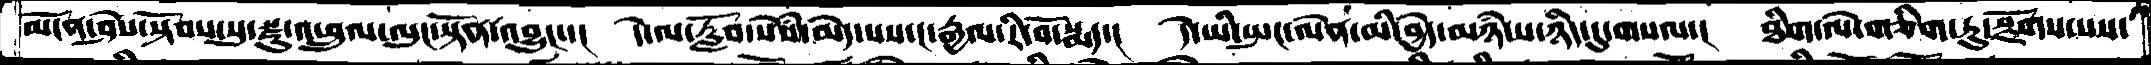མངོན་ཤེས་སྟོབས་སུ་སྫུ་འཕྲུལ་ལུང་སྟོན་འབྱུང་་།  དེ་ལ་རློབ་སེཾས་མེད་པས་ང་རྒྱལ་རི་བོ་སྨད་།  དེ་ཡི་སྤང་ལེན་མི་བྱེད་མཉཾ་པ་ཉིད་དུ་གསལ་།  ཐིག་ལེ་གཅིག་ཏུ་སྫོགས་པས་
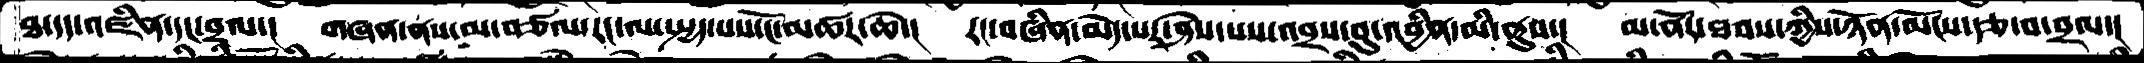ཐ་དད་འཛིན་དང་བྲལ་།  གཞན་ནས་མ་བཙལ་རང་ལ་སྤྱད་པས་ངོ་མཚར་ཆེ་།  རང་བཞིན་མེད་པར་ཤེས་པས་འབྲས་བུ་འབྱིན་མི་ནུས་།  མ་ནོར་ཐབས་ཀྱིས་ཉོན་མོངས་རྩ་བ་བྲལ་།
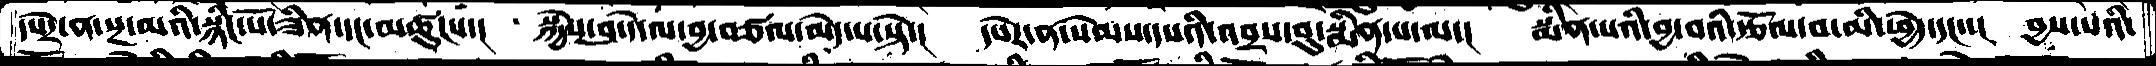དཔེར་ན་སྔ་མའི་སྙིང་པོ་ཟིན་དང་མཚུངས་།  སྐྱེས་བུ་དེ་ལ་བྱ་བཙལ་མེད་པ་སྟེ།  དཔེར་ན་སེམས་དཔའི་འབྲས་བུ་སྨིན་པ་ལ་།  སྨིན་པའི་བྱ་བའི་རྩོལ་བ་མི་ཕྱེད་དང་་།  བྱས་པའི་
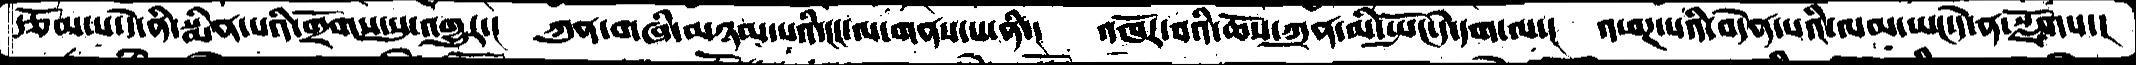རྩོམ་པ་དེ་ནི་སྨིན་པའི་གྲོགས་སུ་འགྱུར་།  ཀུན་གཞི་མཉམ་པའི་ངང་ལ་གནས་པ་ནི་།  འཁོར་བའི་ཆོས་ཀུན་མི་སྤོང་དེ་དག་ལ་།  འཕཌ་པའི་བདེན་པའི་ལམ་ཡང་དེ་ན་སྫོགས་།
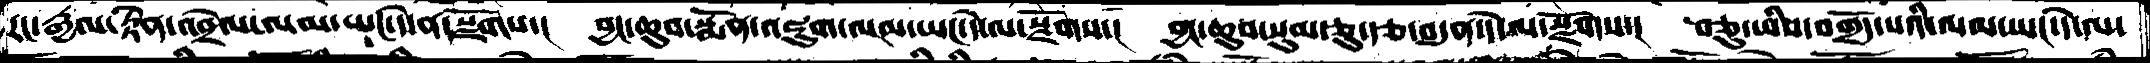རང་རྒྱལ་རྟེན་འབྲེལ་ལམ་ཡང་དེ་ན་སྫོགས་།  བྱང་ཆུབ་སྨོན་འཇུག་ལམ་ཡང་དེ་ལ་སྫོགས་།  བྱང་ཆུབ་སུམ་ཅུ་རྩ་བདུན་དེ་ལ་སྫོགས་།  བཅུ་ཡིས་བགྲོད་པའི་ལམ་ཡང་དེ་ལ་
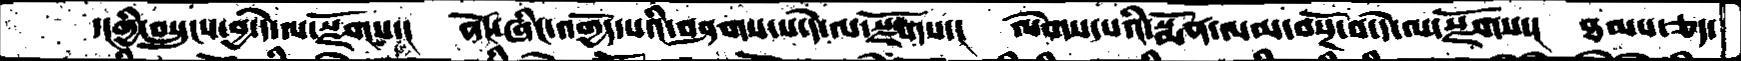་།གྱི་བསྲུངས་བྱ་དེ་ལ་སྫོགས་།  ནོང་ཞིང་འགྱོད་པའི་བཤགས་པ་དེ་ལ་སྫོགས་།  ལེགས་པའི་སྨོན་ལམ་བསྔོ་བ་དེ་ལ་སྫོགས་།  ཐམས་ཅད་
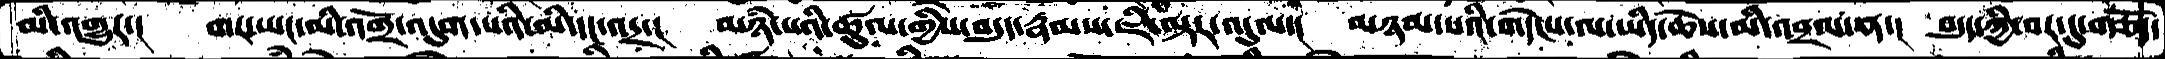མི་འགྱུར་།  གར་ཡང་མི་འགྲོ་འདུག་པའི་མི་དང་འདྲ་།  མཉཾ་པའི་ཚུལ་གྱིས་བདུད་རྣམས་ཇི་ལྟར་འདུལ་།  མཉམ་པའི་གདེངས་ལ་ཡིད་ཆེས་མི་འབྲལ་ན་།  བདུད་ཀྱི་བར་དུ་གཅོད་
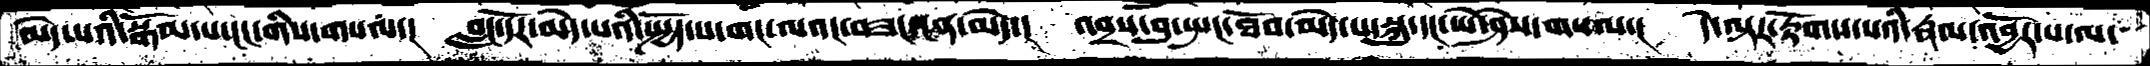མེད་པའི་སྒོམ་པ་ངང་གིས་གསལ་།  བླང་དོར་མེད་པའི་སྤྱོད་པ་གང་ལའང་བཟང་ངན་མེད་།  འབྲས་བུ་སྤང་ཐོབ་མེད་པ་སྐུ་དང་ཡེ་ཤེས་གསལ་།  དེ་ལྟར་རྟོགས་པའི་རྣལ་འབྱོར་པ་ལ་
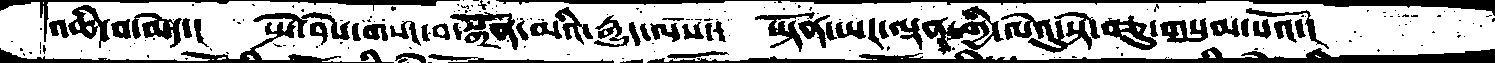འཆི་བ་མེད་།  ཡེ་ཤེས་གསང་བ་སྒྲོན་མའི་རྒྱུད་ལས་།  ཡྟོན་ཡར་ལྡན་གྱི་ལེའུ་སྟེ་གཅུ་གསུམ་པའོ་།
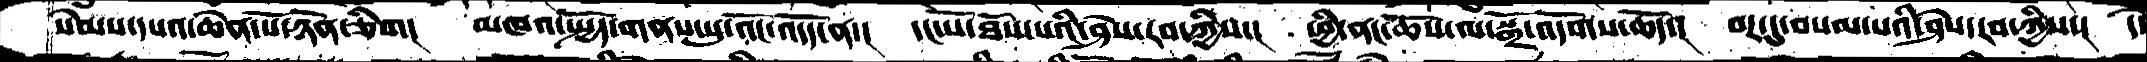སེམས་དཔའ་ཆེན་པོ་ཉོན་ཅིག།  མཁའ་སྤྱོད་གནས་སུ་འོང་འདོད་ན་།  དང་པོ་ཐོས་པའི་ཤེས་རབ་ཀྱིས་།  ཕྱི་ནང་ཆོས་ལ་སྒྲོ་འདོགས་ཆོད་།  བར་དུ་བསམ་པའི་ཤེས་རབ་ཀྱིས་།  དེ་
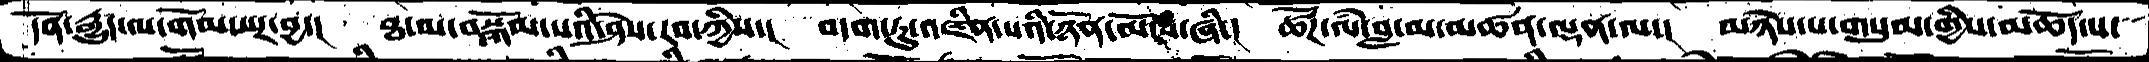དོན་རྒྱུད་ལ་གོམ་པར་བྱ་།  ཐ་མ་བསྒོམས་པའི་ཤེས་རབ་ཀྱིས་།  བདག་ཏུ་འཛིན་པའི་ཉོན་མོངས་ཞི་།  ཚོཌ་ལཾ་བླ་མ་མཚན་ལྡན་ལ་།  མཉེས་པ་གསུམ་གྱིས་མཆོད་པ་
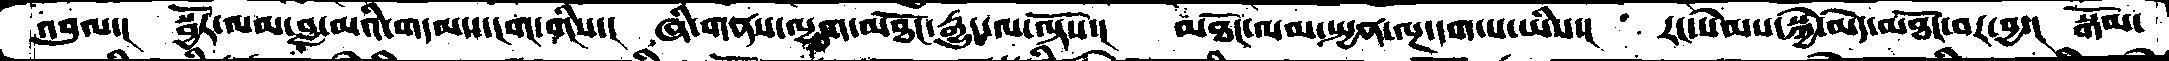འབུལ་།  སྦྱོར་ལམ་བླ་མའི་གདམས་ངག་གིས་།  ཞི་གནས་ལྷག་མཐོང་རྒྱུད་ལ་ལྟོས་།  མཐོང་ལམ་སྤྱན་ལྔ་དག་པ་ཡིས་།  རང་སེམས་སྐྱེ་མེད་མཐོང་བར་བྱ་།  སྒོམ་
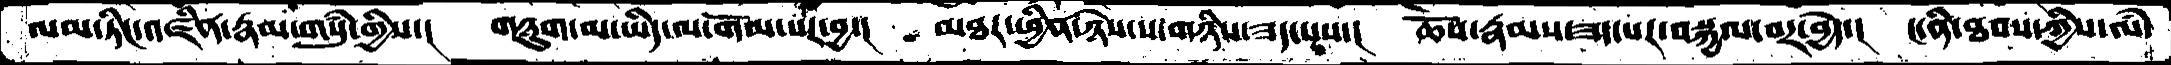ལམ་ཏིང་འཛིན་རྣམ་གསུཾ་གྱིས་།  གཉུག་མ་ཡིད་ལ་གོམ་པར་བྱ་།  མཐར་ཕྱིན་ཉེས་པ་གཉིས་ཟད་པས་།   ཆོས་རྣམས་ཟད་པར་བསྐྱལ་བར་བྱེད་།  ང་ནི་ཐབས་ཀྱིས་ལཾ་
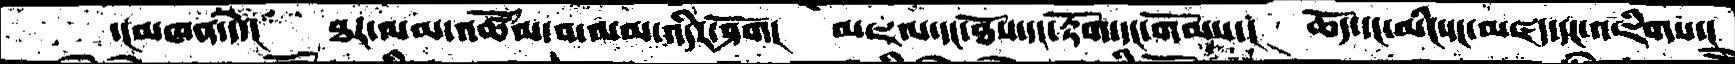་།མཁན་དེ་།  ཐར་ལམ་འཚོལ་བ་ལམ་འདིར་ཤོག།  མཇལ་དང་ཐོས་དང་རྟོག་དང་གོམས་།  ཆོད་དང་མིང་དང་མཛད་དང་འཇིགས་།
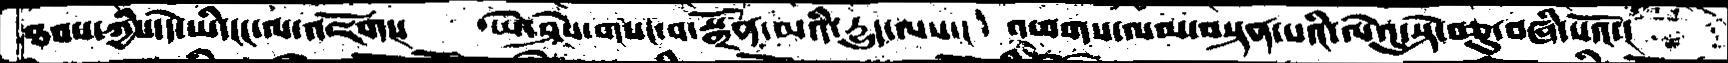ཐབས་ཀྱིས་དེ་ཡི་ངང་ལ་འཇོག།  ཡེ་ཤེས་གསང་བ་སྒྲོན་མའི་དྱུད་ལས་།  འཕགས་ལམ་བསྟན་པའི་ལེའུ་སྟེ་བཅུ་བཞི་པའོ་།
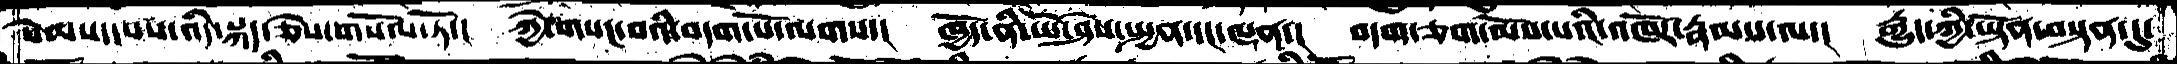སེམས་དསས་འདི་སྐད་ཅེས་གསོལ་ཏོ་།  ཀྱེ་གསང་བའི་བདག་པོ་ལགས་།  ཁྱོད་ནི་ཡེ་ཤེས་སྤྱན་དང་ལྡན་།  བདག་ཅག་མོས་པའི་འཁོར་རྣམས་ལ་།  རྒྱུད་ཀྱི་ཡྟོན་བསྟན་དུ་
